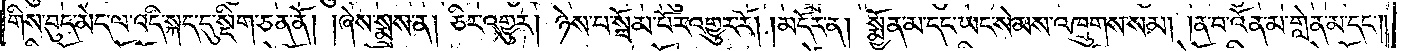གིས་བུད་མེད་ལ་འདི་སྐད་དུ་སྡིག་ཅན་ནོ། །ཞེས་སྨྲས་ན། ཅིར་འགྱུར། ཉེས་པ་སྦོམ་པོར་འགྱུར་རོ། །མདོར་ན། སྨྱོན་མ་དང་ཡང་སེམས་འཁྲུགས་སམ། །ན་བ་འོན་མ་གླེན་མ་དང༌།
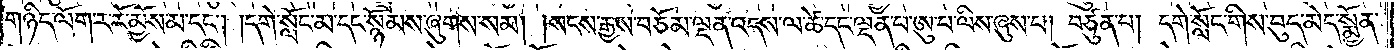གཉིད་ལོག་ར་རོ་མྱོས་མ་དང༌། །དགེ་སློང་མ་དང་སྙོམས་ཞུགས་སམ། །སངས་རྒྱས་བཅོམ་ལྡན་འདས་ལ་ཚེ་དང་ལྡན་པ་ཨུ་པ་ལིས་ཞུས་པ། བཙུན་པ། དགེ་སློང་གིས་བུད་མེད་སྨྱོན་
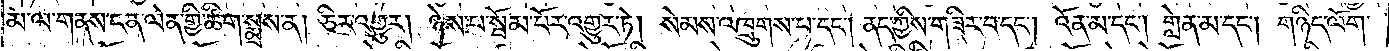མ་ལ་གནས་ངན་ལེན་གྱི་ཚིག་སྨྲས་ན། ཅིར་འགྱུར། ཉེས་པ་སྦོམ་པོར་འགྱུར་ཏེ། སེམས་འཁྲུགས་པ་དང༌། ནད་ཀྱིས་གཟིར་བ་དང༌། འོན་མ་དང༌། གླེན་མ་དང༌། གཉིད་ལོག་
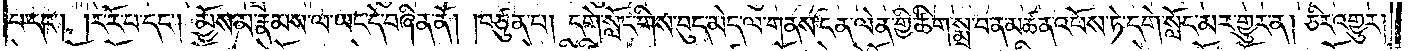པ་དང༌། །ར་རོ་པ་དང༌། མྱོས་མ་རྣམས་ལ་ཡང་དེ་བཞིན་ནོ། །བཙུན་པ། དགེ་སློང་གིས་བུད་མེད་ལ་གནས་ངན་ལེན་གྱི་ཚིག་སྨྲ་བ་ན་མཚན་འཕོས་ཏེ་དགེ་སློང་མར་གྱུར་ན། ཅིར་འགྱུར།
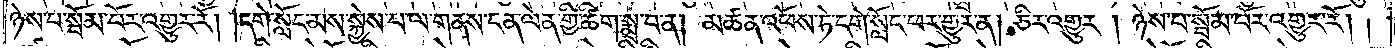ཉེས་པ་སྦོམ་པོར་འགྱུར་རོ། །དགེ་སློང་མས་སྐྱེས་པ་ལ་གནས་ངན་ལེན་གྱི་ཚིག་སྨྲ་བ་ན། མཚན་འཕོས་ཏེ་དགེ་སློང་ཕར་གྱུར་ན། ཅིར་འགྱུར། ཉེས་པ་སྦོམ་པོར་འགྱུར་རོ། །
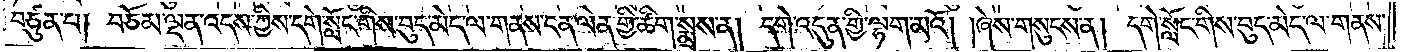བཙུན་པ། བཅོམ་ལྡན་འདས་ཀྱིས་དགེ་སློང་གིས་བུད་མེད་ལ་གནས་ངན་ལེན་གྱི་ཚིག་སྨྲས་ན། དགེ་འདུན་གྱི་ལྷག་མའོ། །ཞེས་གསུངས་ན། དགེ་སློང་གིས་བུད་མེད་ལ་གནས་
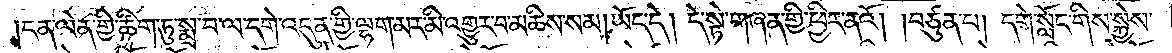།ངན་ལེན་གྱི་ཚིག་ཏུ་སྨྲ་བ་ལ་དགེ་འདུན་གྱི་ལྷག་མར་མི་འགྱུར་བ་མཆིས་སམ། ཡོད་དེ། དེ་སྟེ་གཞན་གྱི་ཕྱིར་ནའོ། །བཙུན་པ། དགེ་སློང་གིས་སྐྱེས་
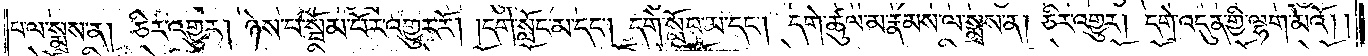པ་ལ་སྨྲས་ན། ཅིར་འགྱུར། ཉེས་པ་སྦོམ་པོར་འགྱུར་རོ། །དགེ་སློང་མ་དང༌། དགེ་སློབ་མ་དང༌། དགེ་ཚུལ་མ་རྣམས་ལ་སྨྲས་ན། ཅིར་འགྱུར། དགེ་འདུན་གྱི་ལྷག་མའོ༎
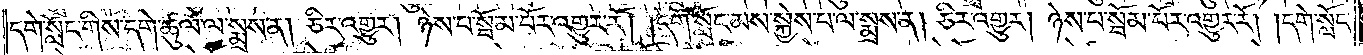དགེ་སློང་གིས་དགེ་ཚུལ་ལ་སྨྲས་ན། ཅིར་འགྱུར། ཉེས་པ་སྦོམ་པོར་འགྱུར་རོ། །དགེ་སློང་མས་སྐྱེས་པ་ལ་སྨྲས་ན། ཅིར་འགྱུར། ཉེས་པ་སྦོམ་པོར་འགྱུར་རོ། །དགེ་སློང་
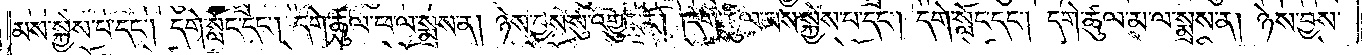མས་སྐྱེས་པ་དང༌། དགེ་སློང་དང༌། དགེ་ཚུལ་ཕ་ལ་སྨྲས་ན། ཉེས་བྱས་སུ་འགྱུར་རོ། །དགེ་ཚུལ་མས་སྐྱེས་པ་དང༌། དགེ་སློང་དང༌། དགེ་ཚུལ་མ་ལ་སྨྲས་ན། ཉེས་བྱས་
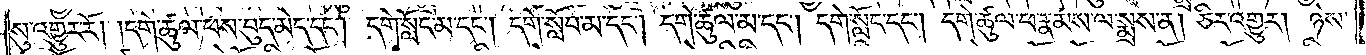སུ་འགྱུར་རོ། །དགེ་ཚུལ་ཕས་བུད་མེད་དང༌། དགེ་སློང་མ་དང༌། དགེ་སློབ་མ་དང༌། དགེ་ཚུལ་མ་དང༌། དགེ་སློང་དང༌། དགེ་ཚུལ་ཕ་རྣམས་ལ་སྨྲས་ན། ཅིར་འགྱུར། ཉེས་
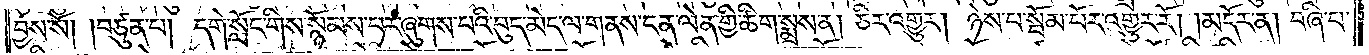བྱས་སོ། །བཙུན་པ། དགེ་སློང་གིས་སྙོམས་པར་ཞུགས་པའི་བུད་མེད་ལ་གནས་ངན་ལེན་གྱི་ཚིག་སྨྲས་ན། ཅིར་འགྱུར། ཉེས་པ་སྦོམ་པོར་འགྱུར་རོ། །མདོར་ན། བཞི་པ་
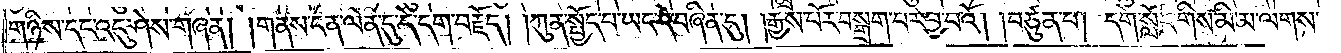གཉིས་དང་འདུ་ཤེས་གཞན། །གནས་ངན་ལེན་དུ་དེ་དག་བརྗོད། །ཀུན་སྤྱོད་པ་ཡང་དེ་བཞིན་དུ། །རྒྱས་པོར་བསྒྲག་པར་བྱ་བའོ། །བཙུན་པ། དགེ་སློང་གིས་མི་མ་ལགས་
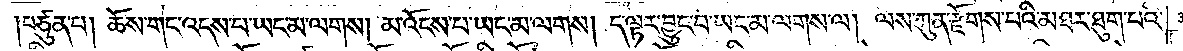།བཙུན་པ། ཆོས་གང་འདས་པ་ཡང་མ་ལགས། མ་འོངས་པ་ཡང་མ་ལགས། ད་ལྟར་བྱུང་བ་ཡང་མ་ལགས་ལ། ལས་ཀུན་རྫོགས་པའི་མཐར་ཐུག་པའི་
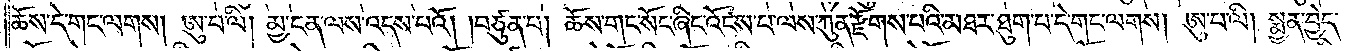ཆོས་དེ་གང་ལགས། ཨུ་པ་ལི། མྱ་ངན་ལས་འདས་པའོ། །བཙུན་པ། ཆོས་གང་སོང་ཞིང་འོངས་པ་ལས་ཀུན་རྫོགས་པའི་མཐར་ཐུག་པ་དེ་གང་ལགས། ཨུ་པ་ལི། སྨྱན་བྱེད་
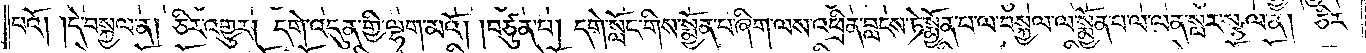པའོ། །དེ་བསྐྱལ་ན། ཅིར་འགྱུར། དགེ་འདུན་གྱི་ལྷག་མའོ། །བཙུན་པ། དགེ་སློང་གིས་སྨྱོན་པ་ཞིག་ལས་འཕྲིན་བླངས་ཏེ་སྨྱོན་པ་ལ་བསྐྱལ་ལ་སྨྱོན་པ་ལ་ལན་སླར་སྩལ་ན། ཅིར་
